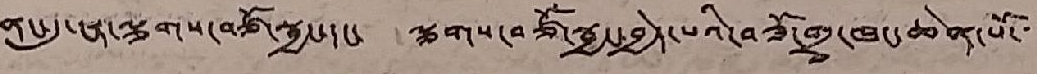ནང་དུ་ངར་ལྕགས་བཙོ་སྦྱང་དང་ ལྕགས་བཙོ་སྦྱང་བྱེད་པའི་བཟོ་གྲྭ་ཁང་ཆེན་པོ་་་
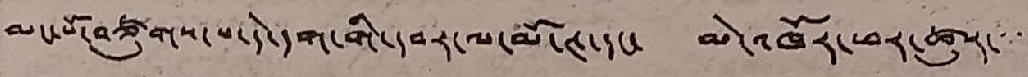མང་པོ་བཙུགས་པ་དེ་དག་གི་དབར་ལ་མོ་ཊ་དང་ མེ་འཁོར་ཕར་ཚུར་་་་་
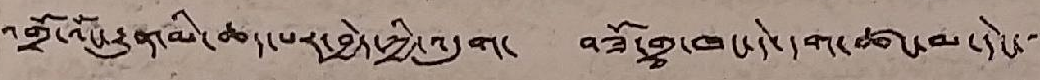འགྲོ་འོང་རྒྱུན་མི་ཆད་པར་བྱེད་ཀྱི་འདུག་ བཟོ་གྲྭ་ཁང་དེ་དག་ཚང་མ་དེང་་་
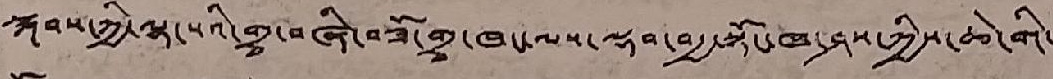སྐབས་ཀྱི་ལྷ་སའི་གྲྭ་བཞི་བཟོ་གྲྭ་ཁང་ལས་ལྡབ་བརྒྱ་སྟོང་ཁ་ཤས་ཀྱིས་ཆེ་གི་
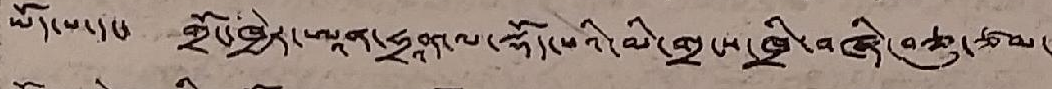ཡོད་པ་དང་ གྲོང་ཁྱེར་ཨཱན་ཧྲནཱ་ལ་སྡོད་པའི་མི་གྲངས་ཁྲི་བཞི་བཅུ་ཙམ་
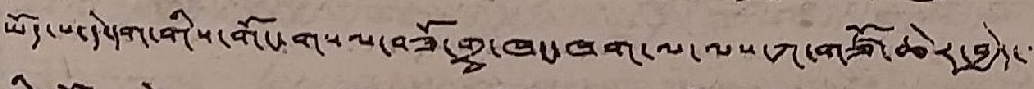ཡོད་པ་དེ་དག་གིས་གོང་གསལ་བཟོ་གྲྭ་ཁང་ཁག་ལ་ལས་ཀ་གཙོ་ཆེར་བྱེད་་་
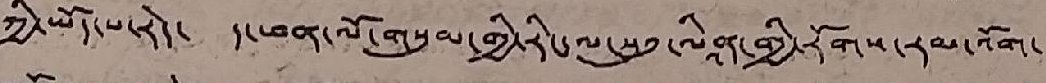ཀྱི་ཡོད་པ་རེད། ད་ཕན་ལོ་གསུམ་གྱི་རིང་ལ་སུའུ་ལཱིན་གྱི་རོགས་རམ་འོག་
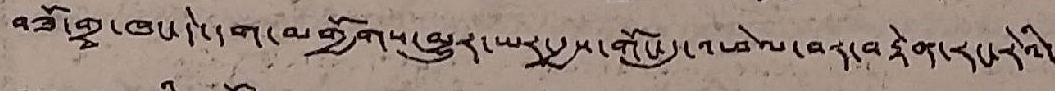བཟོ་གྲྭ་ཁང་དེ་དག་མགྱོགས་མྱུར་ཡར་རྒྱས་གོང་དུ་འཕེལ་བར་བརྟེན་རང་རེའི་
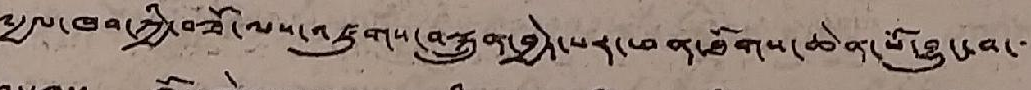༸རྒྱལ་ཁབ་ཀྱི་བཟོ་ལས་འཛུགས་བསྐྲུན་བྱེད་པར་ཕན་ཐོགས་ཆེན་པོ་བྱཽང་བ་་་
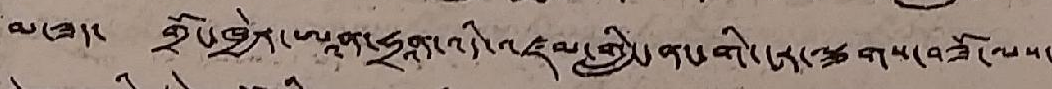མ་ཟད་ གྲོང་ཁྱེར་ཨཱན་ཧྲནཱ་འདི་འཛམ་གླིང་ནང་གི་ངར་ལྕགས་བཟོ་ལས་
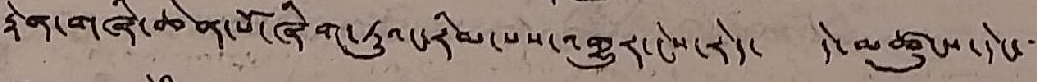རྟེན་གཞི་ཆེན་པོ་ཞིག་ཏུའང་རིམ་པས་འགྱུར་ངེས་རེད། དེ་མཚུངས་དེང་་་
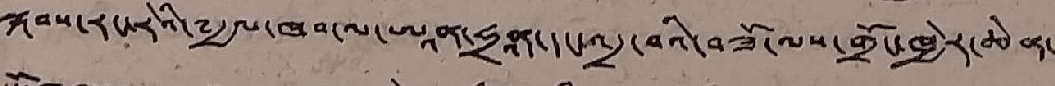སྐབས་རང་རེའི་༸རྒྱལ་ཁབ་ལ་ཨཱན་ཧྲནཱ་དང་འདྲ་བའི་བཟོ་ལས་གྲོང་ཁྱེར་ཆེན་
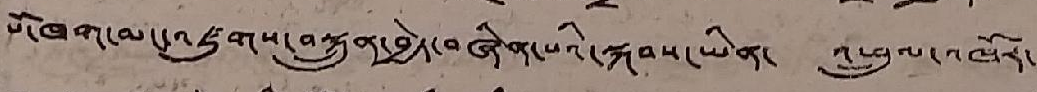པོ་ཁག་མང་འཛུགས་བསྐྲུན་བྱེད་བཞིན་པའི་སྐབས་ཡིན་ འཕྲུལ་འཁོར་་
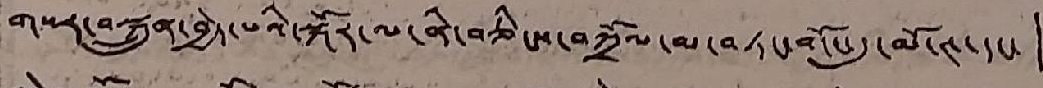གསར་བསྐྲུན་བྱེད་པའི་སྐོར་ལ་ནི་བཅིངས་བཀྲོལ་མ་བཏང་གོང་དུ་མོ་ཊ་དང་
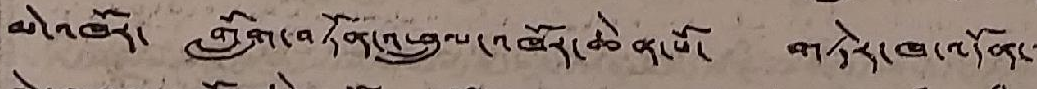མེ་འཁོར་ གློག་བཏོན་འཕྲུལ་འཁོར་ཆེན་པོ་ གཏེར་ཁ་འདོན་་་
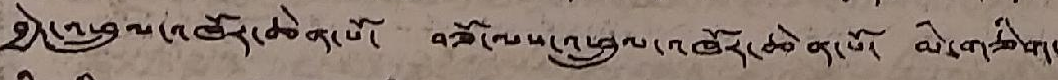བྱེད་འཕྲུལ་འཁོར་ཆེན་པོ་ བཟོ་ལས་འཕྲུལ་འཁོར་ཆེན་པོ་ མི་གཅིག་
